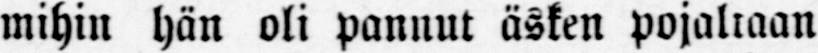mihin hän oli pannut äsken pojaltaan
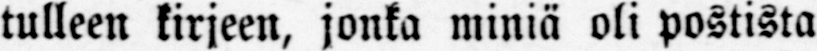tulleen kirjeen, jonka miniä oli postista
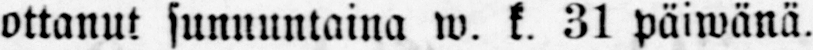ottanut sunnuntaina w. k. 31 päiwänä.
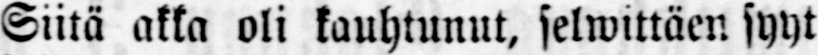Siitä akka oli kauhtunut, selwittäen syyt
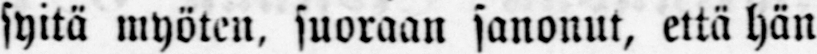syitä myöten, suoraan sanonut, että hän
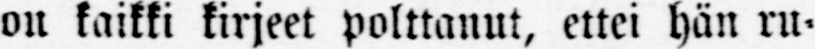on kaikki kirjeet polttanut, ettei hän ru-
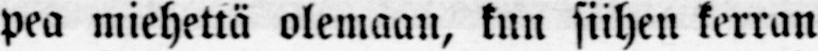pea miehettä olemaan, kun siihen kerran
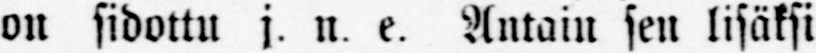on sidottu j. n e. Antain sen lisäksi
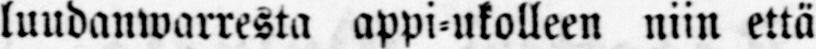luudanwarresta appi-ukolleen niin että
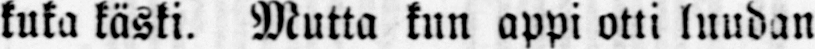kuka käski. Mutta kun appi otti luudan
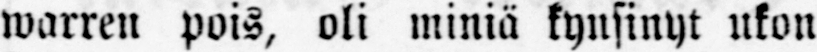warren pois, oli miniä kynsinyt ukon
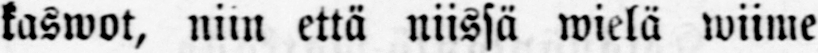kaswot, niin että niissä wielä wiime
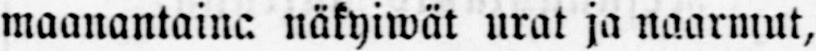maanantaine näkyiwät urat ja naarmut,
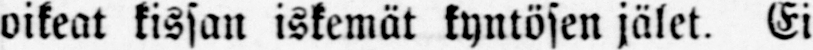oikeat kissan iskemät kyntösen jälet. Ei
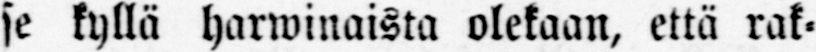se kyllä harwinaista olekaan, että rak-
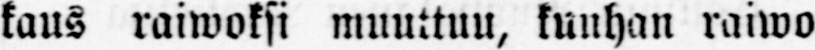kaus raiwoksi muuttuu, kunhan raiwo
